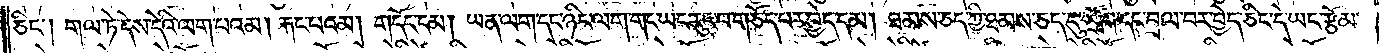ཅིང༌། གལ་ཏེ་དེས་དེའི་ལག་པའམ། རྐང་པའམ། གདོང་ངམ། ཡན་ལག་དང་ཉིང་ལག་གང་ཡང་རུང་བ་གཅོད་པར་བྱེད་དམ། ཐམས་ཅད་ཀྱི་ཐམས་ཅད་དུ་སྲོག་དང་བྲལ་བར་བྱེད་ཅིང་དེ་ཡང་རྩོམ་
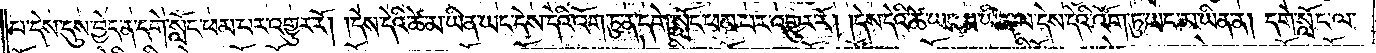པ་དེས་དུས་བྱེད་ན་དགེ་སློང་ཕམ་པར་འགྱུར་རོ། །དེས་དེའི་ཚེ་མ་ཡིན་ཡང་དེས་དེའི་འོག་ཏུ་ན་དགེ་སློང་ཕམ་པར་འགྱུར་རོ། །དེས་དེའི་ཚེ་ཡང་མ་ཡིན་ལ་དེས་དེའི་འོག་ཏུ་ཡང་མ་ཡིན་ན། དགེ་སློང་ལ་
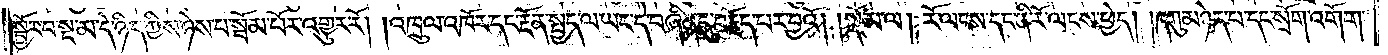སྦྱོར་བ་སྔ་མ་དེ་ཉིད་ཀྱིས་ཉེས་པ་སྦོམ་པོར་འགྱུར་རོ། །འཁྲུལ་འཁོར་དང་རྔོན་སྤྱད་ལ་ཡང་དེ་བཞིན་དུ་བརྗོད་པར་བྱའོ། །སྡོམ་ལ། རོ་ལངས་དང་ནི་རོ་ལངས་ཕྱེད། །དཀུ་མཉེད་པ་དང་སྲོག་འགོག་
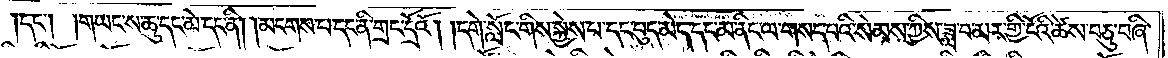།དང༌། གཡངས་ཆུ་དང་མེ་དང་ནི། །མངགས་པ་དང་ནི་གྲང་དྲོའོ། །དགེ་སློང་གིས་སྐྱེས་པ་དང་བུད་མེད་དང་མ་ནིང་ལ་གསད་པའི་སེམས་ཀྱིས་ཟླ་བ་མར་གྱི་ངོའི་ཚེས་བཅུ་བཞི་
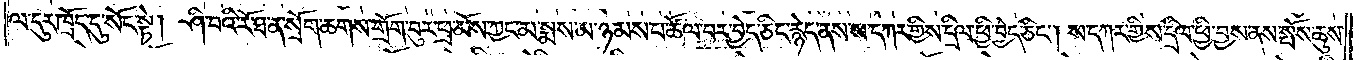ལ་དུར་ཁྲོད་དུ་སོང་སྟེ། ཤི་བའི་རོ་ཐ་ན་སྲོག་ཆགས་གྲོག་བུར་ཕྲ་མོས་ཀྱང་མ་སྨས་མ་ཉམས་པ་ཚོལ་བར་བྱེད་ཅིང་རྙེད་ནས་ས་དཀར་གྱིས་དྲིལ་ཕྱི་བྱེད་ཅིང༌། ས་དཀར་གྱིས་དྲིལ་ཕྱི་བྱས་ནས་སྤོས་ཆུས་
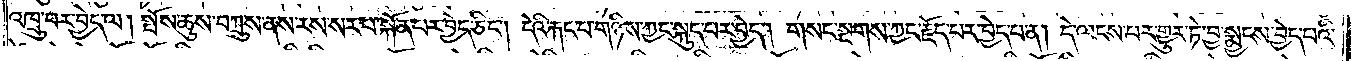འཁྲུ་བར་བྱེད་ལ། སྤོས་ཆུས་བཀྲུས་ནས་རས་སར་པ་སྐོན་པར་བྱེད་ཅིང༌། དེའི་རྐང་པ་གཉིས་ཀྱང་སྐུད་པར་བྱེད། གསང་སྔགས་ཀྱང་རྗོད་པར་བྱེད་པ་ན། དེ་ལངས་པར་གྱུར་ཏེ་བྱ་སྨྱངས་བྱེད་པའི་
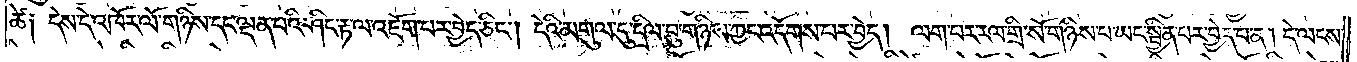ཚེ༑ དེས་དེ་འཁོར་ལོ་གཉིས་དང་ལྡན་པའི་ཤིང་རྟ་ལ་འཇོག་པར་བྱེད་ཅིང༌། དེའི་མགུལ་དུ་དྲིལ་བུ་གཉིས་ཀྱང་འདོགས་པར་བྱེད། ལག་པར་རལ་གྲི་སོ་གཉིས་པ་ཡང་སྦྱིན་པར་བྱེད་པ་ན། དེ་ལངས་
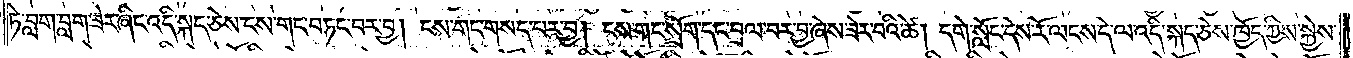ཏེ་བླག་བླག་ཟེར་ཞིང་འདི་སྐད་ཅེས་ངས་གང་བཏང་བར་བྱ། ངས་གང་གསད་པར་བྱ། ངས་གང་སྲོག་དང་བྲལ་བར་བྱ་ཞེས་ཟེར་བའི་ཚེ། དགེ་སློང་དེས་རོ་ལངས་ད་ལ་འདི་སྐད་ཅེས་ཁྱོད་ཀྱིས་སྐྱེས་
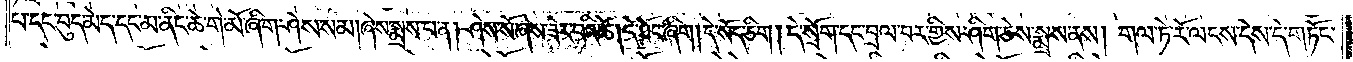པ་དང་བུད་མེད་དང་མ་ནིང་ཆེ་གེ་མོ་ཞིག་ཤེས་སམ། ཞེས་སྨྲས་པ་ན། ཤེས་སོ་ཞེས་ཟེར་བའི་ཚེ། དེ་ཐོང་ཞིག །དེ་སོད་ཅིག །དེ་སྲོག་དང་བྲལ་བར་གྱིས་ཤིག་ཅེས་སྨྲས་ནས། གལ་ཏེ་རོ་ལངས་དེས་དེ་གཏོང་
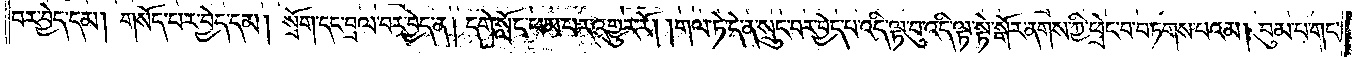བར་བྱེད་དམ། གསོད་པར་བྱེད་དམ། སྲོག་དང་བྲལ་བར་བྱེད་ན། དགེ་སློང་ཕམ་པར་འགྱུར་རོ། །གལ་ཏེ་དེ་ན་སྲུང་བར་བྱེད་པ་འདི་ལྟ་བུ་འདི་ལྟ་སྟེ་སྒོར་ནགས་ཀྱི་ཕྲེང་བ་བཏགས་པའམ། བུམ་པ་གང་
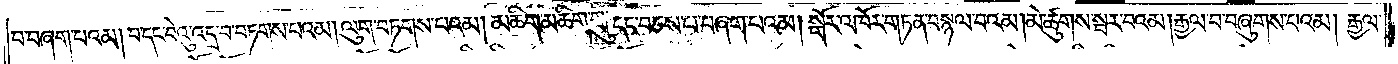བ་བཞག་པའམ། བ་དང་བེའུ་འདྲ་བ་བཏགས་པའམ། ལུག་བཏགས་པའམ། མཆིག་མཆིག་གུ་དང་བཅས་པ་བཞག་པའམ། སྒོར་འཁོར་གཏན་བསྙལ་བའམ། མེ་ཚུགས་སྦར་བའམ། རྒྱལ་བ་བཞུགས་པའམ། རྒྱལ་
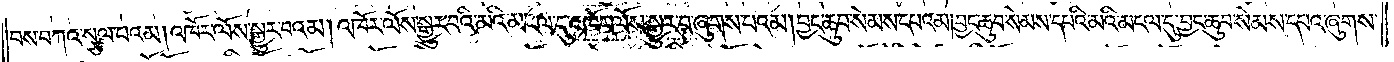བས་བཀའ་སྩལ་པའམ། འཁོར་ལོས་སྒྱུར་བའམ། འཁོར་ལོས་སྒྱུར་བའི་མའི་མངལ་དུ་འཁོར་ལོས་སྒྱུར་བ་ཞུགས་པའམ། བྱང་ཆུབ་སེམས་དཔའ་མ། བྱང་ཆུབ་སེམས་དཔའི་མའི་མངལ་དུ་བྱང་ཆུབ་སེམས་དཔའ་ཞུགས་
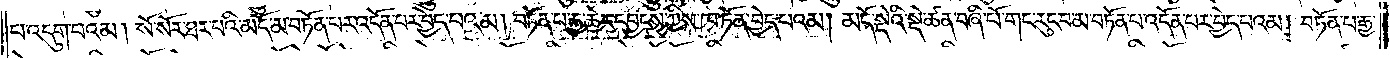པ་འདུག་པའམ། སོ་སོར་ཐར་པའི་མདོ་མ་བཏོན་བར་འདོན་པར་བྱེད་པའམ། བཏོན་པ་རྒྱ་ཆེར་དབྱངས་ཀྱིས་ཁ་ཏོན་བྱེད་པའམ། མདོ་སྡེའི་སྡེ་ཚན་བཞི་པོ་གང་རུང་བ་མ་བཏོན་པ་འདོན་པར་བྱེད་པའམ། བཏོན་པ་རྒྱ་
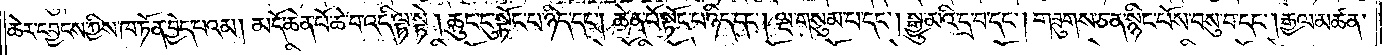ཆེར་དབྱངས་ཀྱིས་ཁ་ཏོན་བྱེད་པའམ། མདོ་ཆེན་པོ་ཆེ་བ་འདི་ལྟ་སྟེ། ཆུང་ངུ་སྟོང་པ་ཉིད་དང༌། ཆེན་པོ་སྟོང་པ་ཉིད་དང༌། ལྔ་གསུམ་པ་དང༌། སྒྱུ་མའི་དྲ་བ་དང༌། གཟུགས་ཅན་སྙིང་པོས་བསུ་བ་དང༌། རྒྱལ་མཚན་
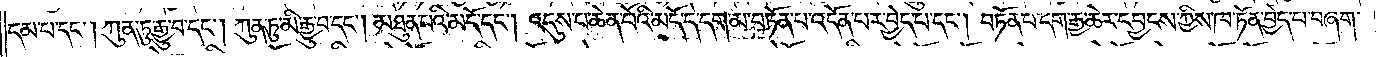དམ་པ་དང༌། ཀུན་ཏུ་རྒྱུ་བ་དང༌། ཀུན་ཏུ་མི་རྒྱུ་བ་དང༌། མཐུན་པའི་མདོ་དང༌། འདུས་པ་ཆེན་པོའི་མདོ་དེ་དག་མ་བཏོན་པ་འདོན་པར་བྱེད་པ་དང༌། བཏོན་པ་དག་རྒྱ་ཆེར་དབྱངས་ཀྱིས་ཁ་ཏོན་བྱེད་པ་བཞག་
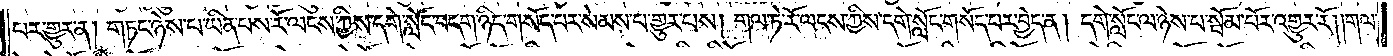པར་གྱུར་ན། གཏང་ཉེས་པ་ཡིན་པས་རོ་ལངས་ཀྱིས་དགེ་སློང་བདག་ཉིད་གསོད་པར་སེམས་པ་གྱུར་པས། གལ་ཏེ་རོ་ལངས་ཀྱིས་དགེ་སློང་གསོད་པར་བྱེད་ན། དགེ་སློང་ལ་ཉེས་པ་སྦོམ་པོར་འགྱུར་རོ། །གལ་
